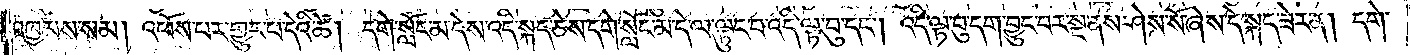འཁྱམས་སམ། འཕོས་པར་གྱུར་པ་དེའི་ཚེ། དགེ་སློང་མ་དེས་འདི་སྐད་ཅེས་དགེ་སློང་མ་དེ་ལ་ལྟུང་བ་འདི་ལྟ་བུ་དང༌། འདི་ལྟ་བུ་དག་བྱུང་བར་སྔ་ནས་ཤེས་སོ་ཞེས་དེ་སྐད་ཟེར་ན། དགེ་
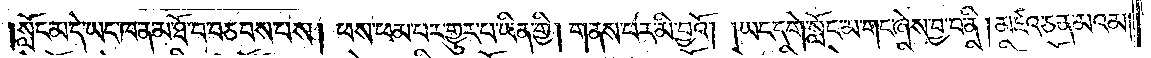སློང་མ་དེ་ཡང་ཁ་ན་མ་ཐོ་བ་བཅབས་པས། ཕས་ཕམ་པར་གྱུར་པ་ཡིན་གྱི། གནས་པར་མི་བྱའོ། །ཡང་དགེ་སློང་མ་གང་ཞེས་བྱ་བ་ནི། མཛའ་ཅན་མའམ།
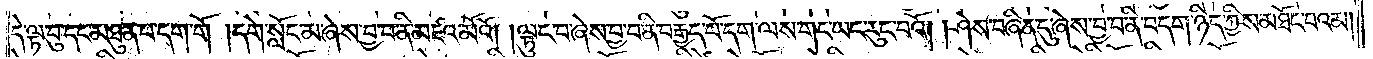དེ་ལྟ་བུ་དང་མཐུན་པ་དག་གོ །དགེ་སློང་མ་ཞེས་བྱ་བ་ནི་མཛའ་མོའོ། །ལྟུང་བ་ཞེས་བྱ་བ་ནི་བརྒྱད་པོ་དག་ལས་གང་ཡང་རུང་བའོ། །ཤེས་བཞིན་དུ་ཞེས་བྱ་བ་ནི་བདག་ཉིད་ཀྱིས་མཐོང་བའམ།
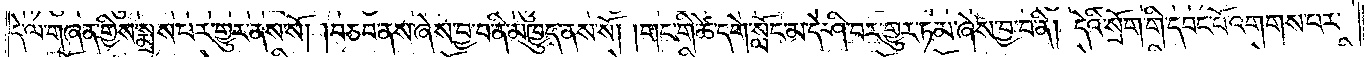དེ་ལ་གཞན་གྱིས་སྨྲས་པར་གྱུར་ནས་སོ། །བཅབ་ནས་ཞེས་བྱ་བ་ནི་མཁྱུད་ནས་སོ། །གང་གི་ཚེ་དགེ་སློང་མ་དེ་ཤི་བར་གྱུར་ཏམ་ཞེས་བྱ་བ་ནི། དེའི་སྲོག་གི་དབང་པོ་འགགས་པར་
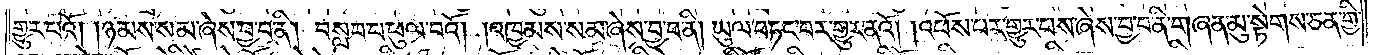གྱུར་པའོ། །ཉམས་སམ་ཞེས་བྱ་བ་ནི། བསླབ་པ་ཕུལ་བའོ། །འཁྱམས་སམ་ཞེས་བྱ་བ་ནི། ཡུལ་བཏང་བར་གྱུར་ནའོ། །འཕོས་པར་གྱུར་པས་ཞེས་བྱ་བ་ནི་གཞན་མུ་སྟེགས་ཅན་གྱི་
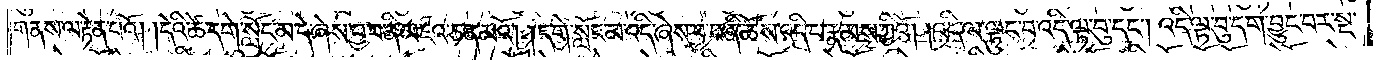གནས་ལ་རྟེན་པའོ། །དེའི་ཚེ་དགེ་སློང་མ་དེ་ཞེས་བྱ་བ་ནི་མཛའ་ཅན་མའོ། །དགེ་སློང་མ་འདི་ཞེས་བྱ་བ་ནི་ཆོས་འདི་པ་རྣམས་ཀྱིའོ། །འདི་ལ་ལྟུང་བ་འདི་ལྟ་བུ་དང༌། འདི་ལྟ་བུ་དག་བྱུང་བར་སྔ་
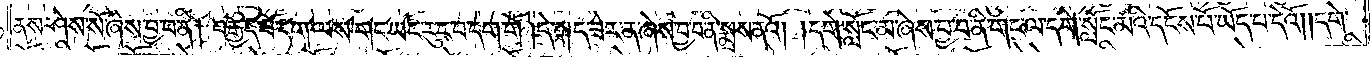ནས་ཤེས་སོ་ཞེས་བྱ་བ་ནི། བརྒྱད་པོ་དག་ལས་གང་ཡང་རུང་བ་དག་གོ །དེ་སྐད་ཟེར་ན་ཞེས་བྱ་བ་ནི་སྨྲས་ནའོ། །དགེ་སློང་མ་ཞེས་བྱ་བ་ནི་གང་ལ་དགེ་སློང་མའི་དངོས་པོ་ཡོད་པ་དེའོ། །དགེ་
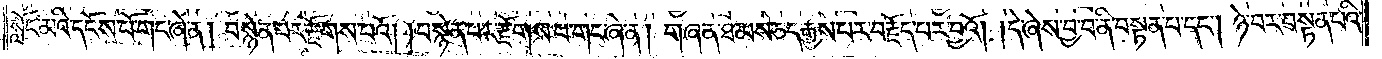སློང་མའི་དངོས་པོ་གང་ཞེ་ན། བསྙེན་པར་རྫོགས་པའོ། །བསྙེན་པར་རྫོགས་པ་གང་ཞེ་ན། གཞན་ཐམས་ཅད་རྒྱས་པར་བརྗོད་པར་བྱའོ། །དེ་ཞེས་བྱ་བ་ནི་བསྟན་པ་དང༌། ཉེ་བར་བསྟན་པའི་
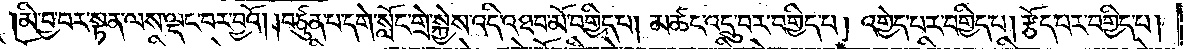མི་བྱ་བར་སྟན་ལས་ལྡང་བར་བྱའོ། །བཙུན་པ་དགེ་སློང་གྲེ་སྐྱེས་འདི་འཐབ་མོ་བགྱིད་པ། མཚང་འདྲུ་བར་བགྱིད་པ། འགྱེད་པར་བགྱིད་པ། རྩོད་པར་བགྱིད་པ།
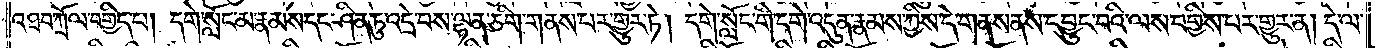འཐབ་ཀྲོལ་བགྱིད་པ། དགེ་སློང་མ་རྣམས་དང་ཤིན་ཏུ་འདྲེ་བས་ལྷན་ཅིག་གནས་པར་གྱུར་ཏེ། དགེ་སློང་གི་དགེ་འདུན་རྣམས་ཀྱིས་དེ་གནས་ནས་དབྱུང་བའི་ལས་བགྱིས་པར་གྱུར་ན། དེ་ལ་
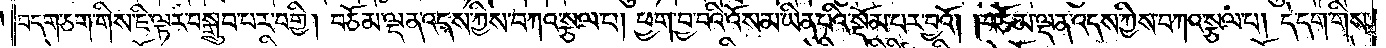བདག་ཅག་གིས་ཇི་ལྟར་བསྒྲུབ་པར་བགྱི། བཅོམ་ལྡན་འདས་ཀྱིས་བཀའ་སྩལ་པ། ཕྱག་བྱ་བའི་འོས་མ་ཡིན་པའི་སྡོམ་པར་བྱའོ། །བཅོམ་ལྡན་འདས་ཀྱིས་བཀའ་སྩལ་པ། དེ་དག་གིས་
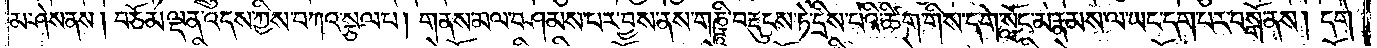མ་ཤེས་ནས། བཅོམ་ལྡན་འདས་ཀྱིས་བཀའ་སྩལ་པ། གནས་མལ་བཤམས་པར་བྱས་ནས་གཎྜཱི་བརྡུངས་ཏེ་དྲིས་པའི་ཚིག་གིས་དགེ་སློང་མ་རྣམས་ལ་ཡང་དག་པར་བསྒོ་ནས། དགེ་
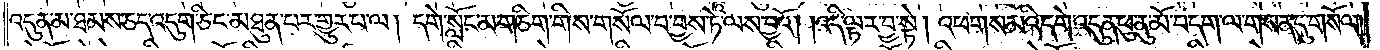འདུན་མ་ཐམས་ཅད་འདུག་ཅིང་མཐུན་པར་གྱུར་པ་ལ། དགེ་སློང་མ་གཅིག་གིས་གསོལ་པ་བྱས་ཏེ་ལས་བྱའོ། །འདི་ལྟར་བྱ་སྟེ། འཕགས་མའི་དགེ་འདུན་ཕུ་ནུ་མོ་བདག་ལ་གསན་དུ་གསོལ།
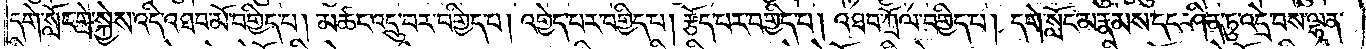དགེ་སློང་གྲེ་སྐྱེས་འདི་འཐབ་མོ་བགྱིད་པ། མཚང་འདྲུ་བར་བགྱིད་པ། འགྱེད་པར་བགྱིད་པ། རྩོད་པར་བགྱིད་པ། འཐབ་ཀྲོལ་བགྱིད་པ། དགེ་སློང་མ་རྣམས་དང་ཤིན་ཏུ་འདྲེ་བས་ལྷན་
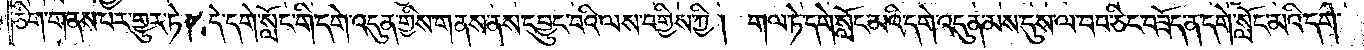ཅིག་གནས་པར་གྱུར་ཏེ། དེ་དགེ་སློང་གི་དགེ་འདུན་གྱིས་གནས་ནས་དབྱུང་བའི་ལས་བགྱིས་ཀྱི། གལ་ཏེ་དགེ་སློང་མའི་དགེ་འདུན་མས་དུས་ལ་བབ་ཅིང་བཟོད་ན་དགེ་སློང་མའི་དགེ་
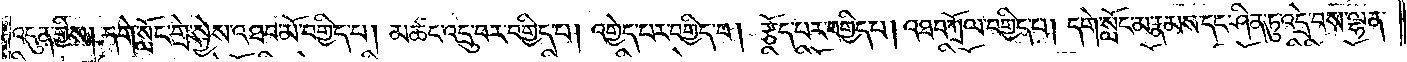འདུན་གྱིས། དགེ་སློང་གྲེ་སྐྱེས་འཐབ་མོ་བགྱིད་པ། མཚང་འདྲུ་བར་བགྱིད་པ། འགྱེད་པར་བགྱིད་པ། རྩོད་པར་བགྱིད་པ། འཐབ་ཀྲོལ་བགྱིད་པ། དགེ་སློང་མ་རྣམས་དང་ཤིན་ཏུ་འདྲེ་བས་ལྷན་
